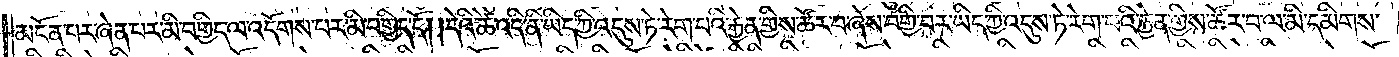མངོན་པར་ཞེན་པར་མི་བགྱིད་ལ་འདོགས་པར་མི་བགྱིད་དོ། །དེའི་ཚེ་འདི་ནི་ཡིད་ཀྱི་འདུས་ཏེ་རེག་པའི་རྐྱེན་གྱིས་ཚོར་བ་ཞེས་བགྱི་བར་ཡིད་ཀྱི་འདུས་ཏེ་རེག་པའི་རྐྱེན་གྱིས་ཚོར་བ་ལ་མི་དམིགས་
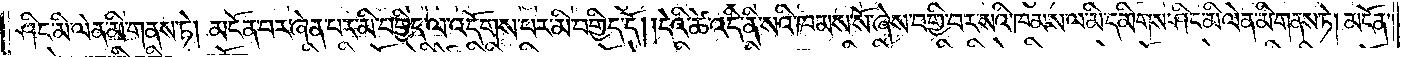ཤིང་མི་ལེན་མི་གནས་ཏེ། མངོན་པར་ཞེན་པར་མི་བགྱིད་ལ་འདོགས་པར་མི་བགྱིད་དོ། །དེའི་ཚེ་འདི་ནི་སའི་ཁམས་སོ་ཞེས་བགྱི་བར་སའི་ཁམས་ལ་མི་དམིགས་ཤིང་མི་ལེན་མི་གནས་ཏེ། མངོན་
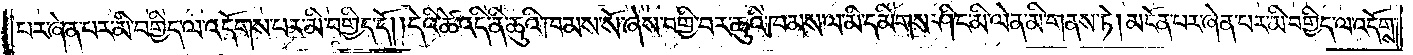པར་ཞེན་པར་མི་བགྱིད་ལ་འདོགས་པར་མི་བགྱིད་དོ། །དེའི་ཚེ་འདི་ནི་ཆུའི་ཁམས་སོ་ཞེས་བགྱི་བར་ཆུའི་ཁམས་ལ་མི་དམིགས་ཤིང་མི་ལེན་མི་གནས་ཏེ། མངོན་པར་ཞེན་པར་མི་བགྱིད་ལ་འདོགས་
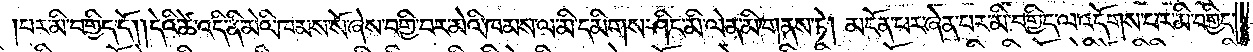པར་མི་བགྱིད་དོ། །དེའི་ཚེ་འདི་ནི་མེའི་ཁམས་སོ་ཞེས་བགྱི་བར་མེའི་ཁམས་ལ་མི་དམིགས་ཤིང་མི་ལེན་མི་གནས་ཏེ། མངོན་པར་ཞེན་པར་མི་བགྱིད་ལ་འདོགས་པར་མི་བགྱིད་
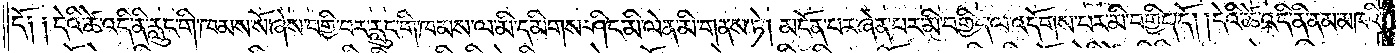དོ༑ ༑དེའི་ཚེ་འདི་ནི་རླུང་གི་ཁམས་སོ་ཞེས་བགྱི་བར་རླུང་གི་ཁམས་ལ་མི་དམིགས་ཤིང་མི་ལེན་མི་གནས་ཏེ། མངོན་པར་ཞེན་པར་མི་བགྱིད་ལ་འདོགས་པར་མི་བགྱིད་དོ། །དེའི་ཚེ་འདི་ནི་ནམ་མཁའི་
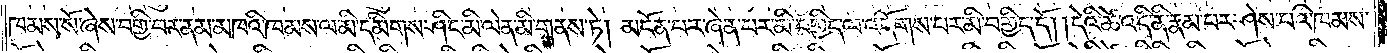ཁམས་སོ་ཞེས་བགྱི་བར་ནམ་མཁའི་ཁམས་ལ་མི་དམིགས་ཤིང་མི་ལེན་མི་གནས་ཏེ། མངོན་པར་ཞེན་པར་མི་བགྱིད་ལ་འདོགས་པར་མི་བགྱིད་དོ། །དེའི་ཚེ་འདི་ནི་རྣམ་པར་ཤེས་པའི་ཁམས་
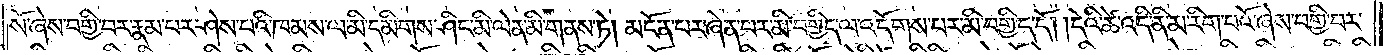སོ་ཞེས་བགྱི་བར་རྣམ་པར་ཤེས་པའི་ཁམས་ལ་མི་དམིགས་ཤིང་མི་ལེན་མི་གནས་ཏེ། མངོན་པར་ཞེན་པར་མི་བགྱིད་ལ་འདོགས་པར་མི་བགྱིད་དོ། །དེའི་ཚེ་འདི་ནི་མ་རིག་པའོ་ཞེས་བགྱི་བར་
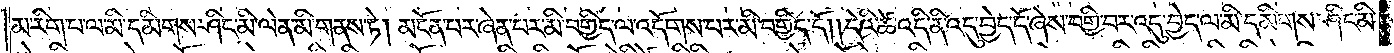མ་རིག་པ་ལ་མི་དམིགས་ཤིང་མི་ལེན་མི་གནས་ཏེ། མངོན་པར་ཞེན་པར་མི་བགྱིད་ལ་འདོགས་པར་མི་བགྱིད་དོ། །དེའི་ཚེ་འདི་ནི་འདུ་བྱེད་དོ་ཞེས་བགྱི་བར་འདུ་བྱེད་ལ་མི་དམིགས་ཤིང་མི་
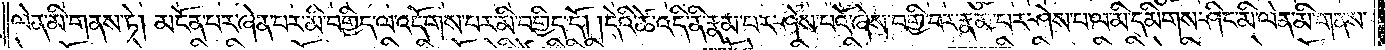ལེན་མི་གནས་ཏེ། མངོན་པར་ཞེན་པར་མི་བགྱིད་ལ་འདོགས་པར་མི་བགྱིད་དོ༑ ༑དེའི་ཚེ་འདི་ནི་རྣམ་པར་ཤེས་པའོ་ཞེས་བགྱི་བར་རྣམ་པར་ཤེས་པ་ལ་མི་དམིགས་ཤིང་མི་ལེན་མི་གནས་
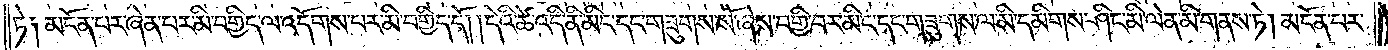ཏེ༑ མངོན་པར་ཞེན་པར་མི་བགྱིད་ལ་འདོགས་པར་མི་བགྱིད་དོ། །དེའི་ཚེ་འདི་ནི་མིང་དང་གཟུགས་སོ་ཞེས་བགྱི་བར་མིང་དང་གཟུགས་ལ་མི་དམིགས་ཤིང་མི་ལེན་མི་གནས་ཏེ། མངོན་པར་
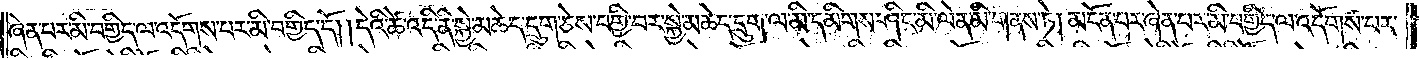ཞེན་པར་མི་བགྱིད་ལ་འདོགས་པར་མི་བགྱིད་དོ། །དེའི་ཚེ་འདི་ནི་སྐྱེ་མཆེད་དྲུག་ཅེས་བགྱི་བར་སྐྱེ་མཆེད་དྲུག་ལ་མི་དམིགས་ཤིང་མི་ལེན་མི་གནས་ཏེ། མངོན་པར་ཞེན་པར་མི་བགྱིད་ལ་འདོགས་པར་
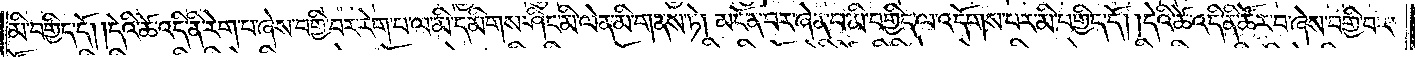མི་བགྱིད་དོ། །དེའི་ཚེ་འདི་ནི་རེག་པ་ཞེས་བགྱི་བར་རེག་པ་ལ་མི་དམིགས་ཤིང་མི་ལེན་མི་གནས་ཏེ། མངོན་པར་ཞེན་པར་མི་བགྱིད་ལ་འདོགས་པར་མི་བགྱིད་དོ། །དེའི་ཚེ་འདི་ནི་ཚོར་བ་ཞེས་བགྱི་བར་
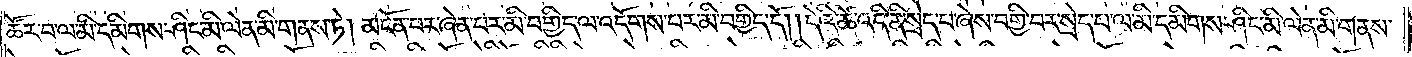ཚོར་བ་ལ་མི་དམིགས་ཤིང་མི་ལེན་མི་གནས་ཏེ། མངོན་པར་ཞེན་པར་མི་བགྱིད་ལ་འདོགས་པར་མི་བགྱིད་དོ། །དེའི་ཚེ་འདི་ནི་སྲེད་པ་ཞེས་བགྱི་བར་སྲེད་པ་ལ་མི་དམིགས་ཤིང་མི་ལེན་མི་གནས་
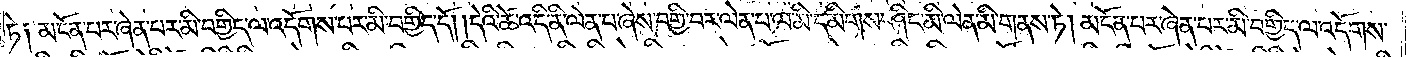ཏེ༑ མངོན་པར་ཞེན་པར་མི་བགྱིད་ལ་འདོགས་པར་མི་བགྱིད་དོ། །དེའི་ཚེ་འདི་ནི་ལེན་པ་ཞེས་བགྱི་བར་ལེན་པ་ལ་མི་དམིགས་ཤིང་མི་ལེན་མི་གནས་ཏེ། མངོན་པར་ཞེན་པར་མི་བགྱིད་ལ་འདོགས་
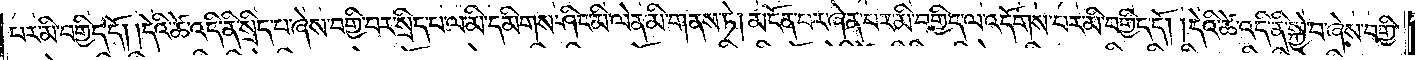པར་མི་བགྱིད་དོ། །དེའི་ཚེ་འདི་ནི་སྲིད་པ་ཞེས་བགྱི་བར་སྲིད་པ་ལ་མི་དམིགས་ཤིང་མི་ལེན་མི་གནས་ཏེ། མངོན་པར་ཞེན་པར་མི་བགྱིད་ལ་འདོགས་པར་མི་བགྱིད་དོ། །དེའི་ཚེ་འདི་ནི་སྐྱེ་བ་ཞེས་བགྱི་
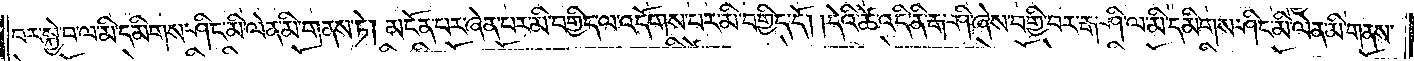བར་སྐྱེ་བ་ལ་མི་དམིགས་ཤིང་མི་ལེན་མི་གནས་ཏེ། མངོན་པར་ཞེན་པར་མི་བགྱིད་ལ་འདོགས་པར་མི་བགྱིད་དོ། །དེའི་ཚེ་འདི་ནི་རྒ་ཤི་ཞེས་བགྱི་བར་རྒ་ཤི་ལ་མི་དམིགས་ཤིང་མི་ལེན་མི་གནས་
